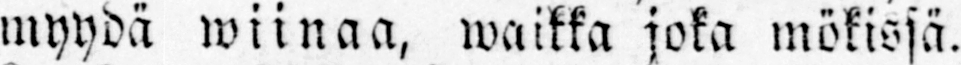myydä wiinaa, waikka joka mökissä.
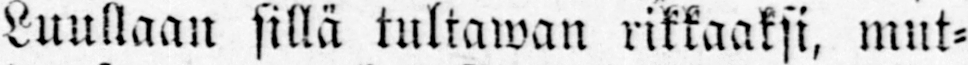Luullaan sillä tultawan rikkaaksi, mut-
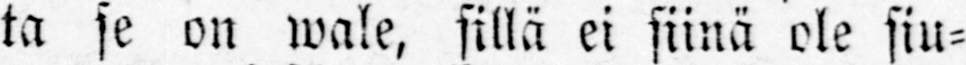ta se on wale, sillä ei siinä ole siu-
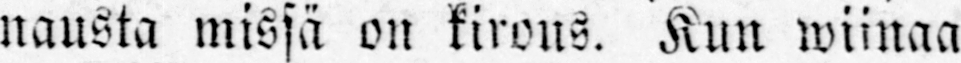nausta missä on kirous. Kun wiinaa
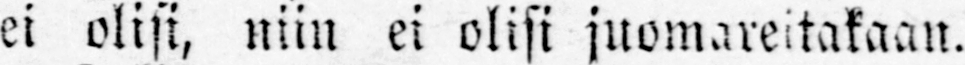ei olisi, niin ei olisi juomareitakaan.
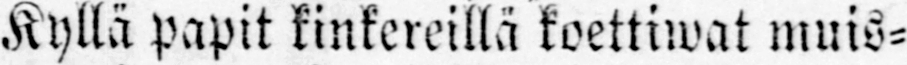Kyllä papit kinkereillä toettiwat muis-
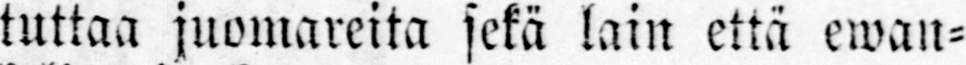tuttaa juomareita sekä lain että ewan-
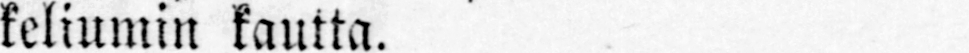keliumin kautta.
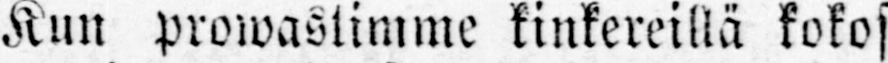Kun prowastimme kinkereillä kokosi
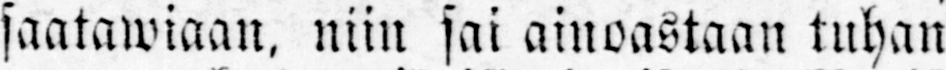saatawiaan, niin sai ainoastaan tuhan-
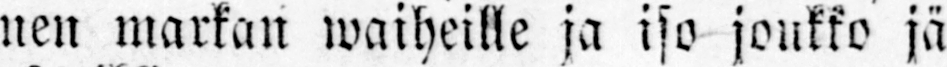nen markan waiheille ja iso joukko jäi
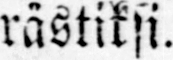rästiksi.
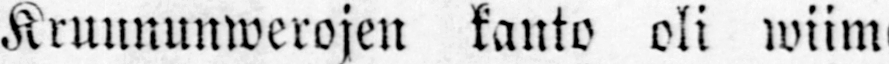Kruununwerojen kanto oli wiime
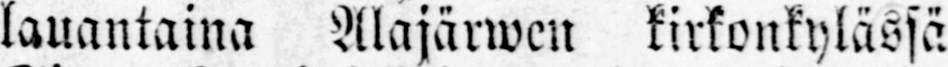lauantaina Alajärwen kirkonkylässä.
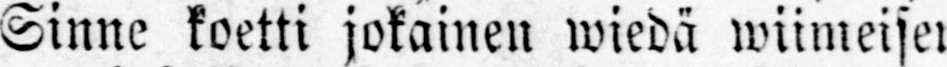Sinne koetti jokainen wiedä wiimeisen
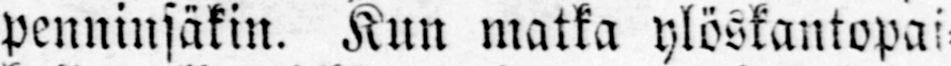penninsäkin. Kun matka ylöskantopai-
